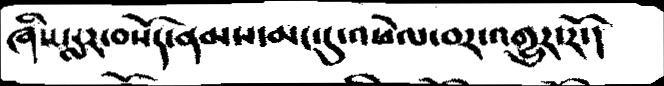ཞིང་སླར་བསོད་ནམས་མང་དུ་འཕེལ་བར་འགྱུར་རོ་།
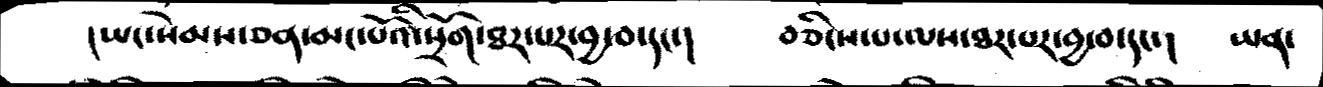།ཡང་སེམས་ཅན་མང་པོའི་སྲོག་ཐར་པར་བྱ་བ་དང་།     བཅིངས་པ་ལས་ཐར་པར་བྱ་བ་དང་།  ཡན་
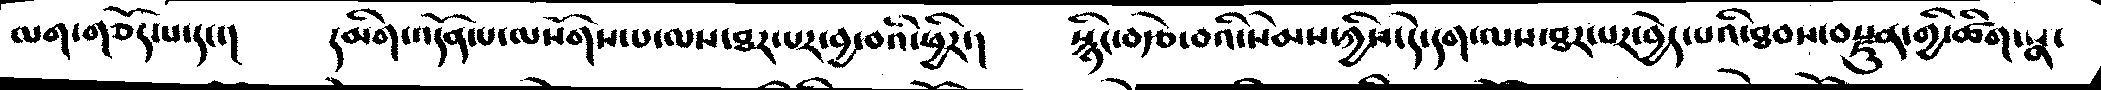ལག་གཅོད་པ་དང་།   དམིག་འདོན་པ་ལསོགས་པ་ལས་ཐར་པར་བྱ་བའི་ཕྱིར་།   སྙིང་བརྩེ་བའི་སེམས་ཀྱིས་དེ་དག་ལས་ཐར་པར་བྱེད་པའི་ཐབས་བརྫུན་གྱི་ཚིག་སྣ་
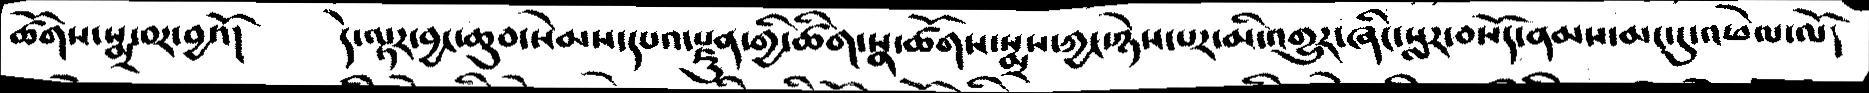ཚོགས་སྨྲ་བར་བྱའོ།    དེ་ལྟར་བྱང་ཆུབ་སེམས་དཔའ་རྫུན་གྱི་ཚིག་སྣ་ཚོགས་སྨྲས་ཀྱང་ཉེས་པར་མི་འགྱུར་ཞིང་སླར་བསོད་ནམས་མང་དུ་འཕེལ་ལོ།
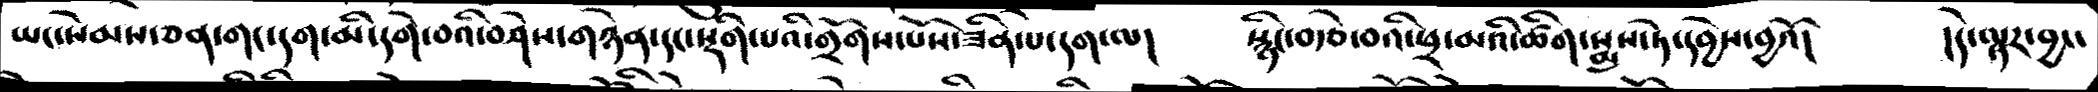ཡང་སེམས་ཅན་གང་དག་མི་དགེ་བའི་བཤེས་གཉེན་དང་སྡིག་པའི་གྲོག་པོས་ཟིན་པ་དག་ལ།    སྙིང་བརྩེ་བའི་ཕྲ་མའི་ཚིག་སྨྲས་ཏེ་དབྱེས་བྱའོ།   །དེ་ལྟར་བྱང་
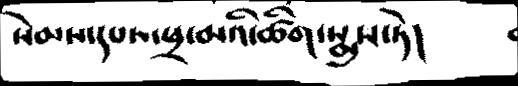སེམས་དཔས་ཕྲ་་མའི་ཚིག་སྨྲས་ཏེ།
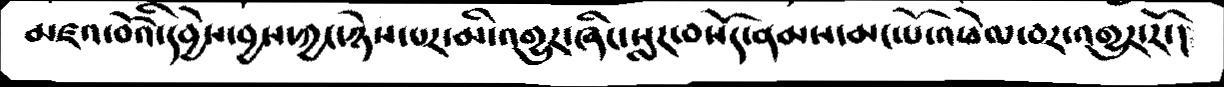མཛའ་བོའི་དབྱེས་བྱས་ཀྱང་ཉེས་པར་མི་འགུར་ཞིང་སླར་བསོད་ནམས་མང་པོ་འཕེལ་བར་འགྱུར་རོ་།
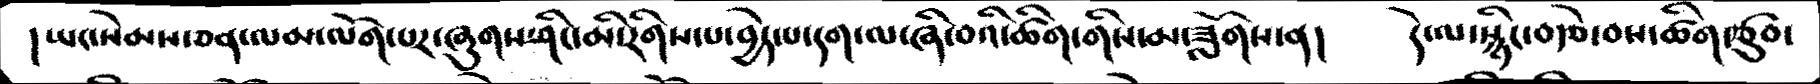།ཡང་སེམས་ཅན་ལམ་ལོག་པར་ཞུགས་ཤིང་མི་རིགས་པ་བྱེད་པ་དག་ལ་ཞི་བའི་ཚིག་གིས་མ་ཟློགས་ན།  དེ་ལ་སྙིང་བརྩེ་བས་ཚིག་རྩུབ་
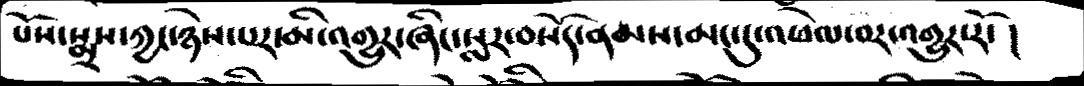པོས་སྨྲས་ཀྱང་ཉེས་པར་མི་འགུར་ཞིང་སླར་བསོད་ནམས་མང་དུ་འཕེལ་བར་འགྱུར་རོ་།
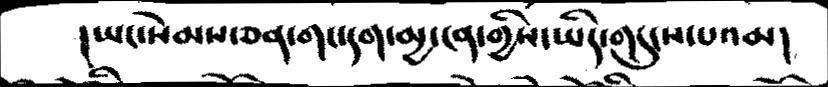།ཡང་སེམས་ཅན་གང་དག་མྱ་ངན་གྱིས་ཡིད་གདུངས་པའམ།
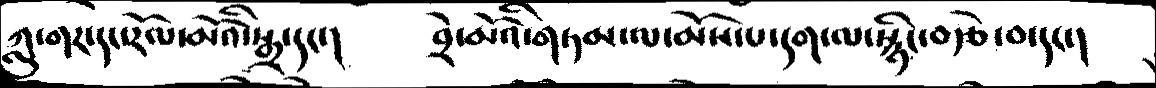ཀླུ་གར་དང་རོལ་མོའི་སྒྲ་དང་།   བྲེ་མོའི་གཏམ་ལ་མོས་པ་དག་ལ་སྙིང་བརྩེ་བ་དང་།
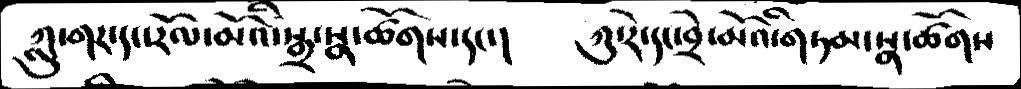ཀླུ་གར་དང་རོམ་མོའི་སྒྲ་སྣ་ཚོགས་དང་།     ཀུ་རེ་དང་བྲེ་མོའི་གཏམ་སྣ་ཚོགས
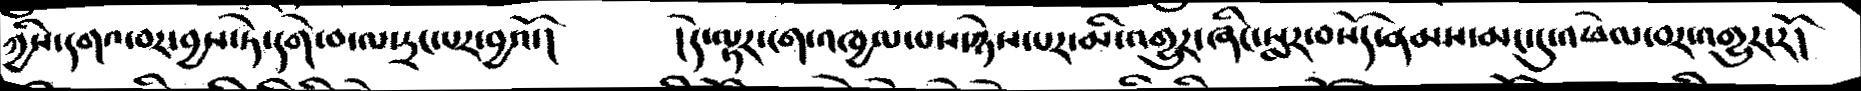ཀྱིས་དགའ་བར་བྱས་ཏེ་དགེ་བ་ལ་དྲང་པར་བྱའོ་།   །དེ་ལྟར་ངག་འཁྱལ་པས་ཉེས་པར་མི་འགྱུར་ཞིང་སླར་བསོད་ནམས་མང་དུ་འཕེལ་བར་འགྱུར་རོ།
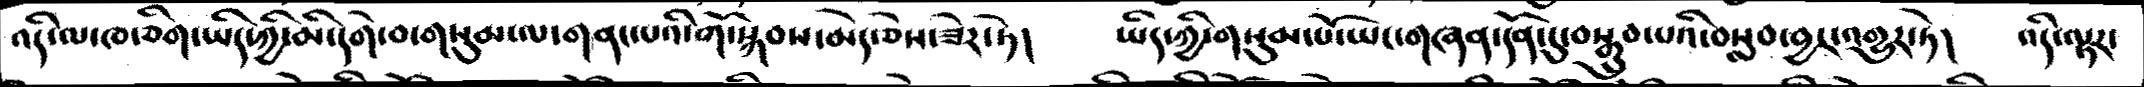འདི་ལ་ཁ་ཅིག་ཡིད་ཀྱི་མི་དགེ་བ་གསུམ་ལ་གནང་པའི་གོ་སྐབས་མེད་ཅེས་ཟེར་ཏེ།   ཡིད་ཀྱི་གསུམ་པོ་ཡང་གཞན་དོན་དུ་བསྒྲུབ་པའི་བསླབ་བྱར་འགྱུར་ཏེ།   འདི་ལྟར་
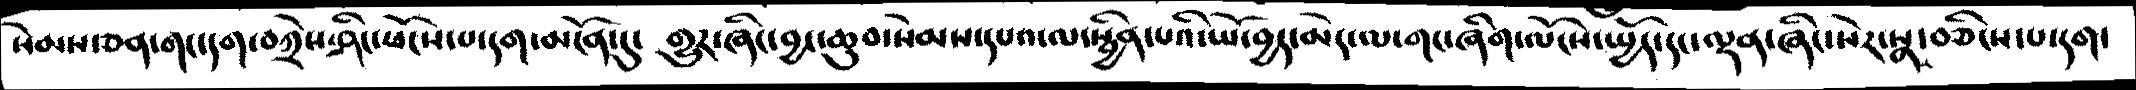སེམས་ཅན་གང་དག་བཀྲེས་ཤིང་ཕོངས་པ་དག་མངོན་དུ་  གྱུར་ཞིང་བྱང་ཆུབ་སེམས་དཔའ་ལ་སྦྱིན་པའི་ཡོ་བྱད་མེད་ལ་གང་ཞིག་ལོངས་སྤྱོད་དང་ལྡན་ཞིང་སེར་སྣ་བཅིངས་པ་དག་
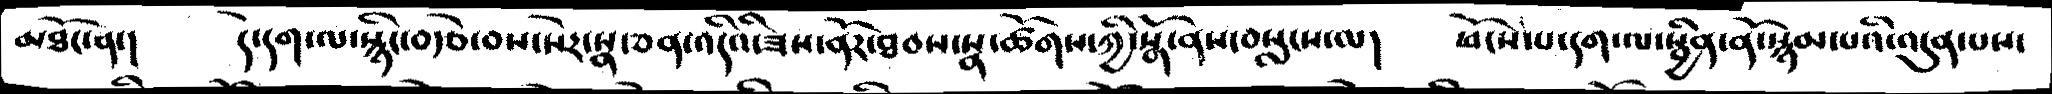མཐོང་ན་།  དེ་དག་ལ་སྙིང་བརྩེ་བས་སེར་སྣ་ཅན་འདིའི་ཟས་ནོར་ཐབས་སྣ་ཚོགས་ཀྱི་སྒོ་ནས་བསླངས་ལ།  ཕོངས་པ་དག་ལ་སྦྱིན་ནོ་སྙམ་པའི་འདུན་པས་
